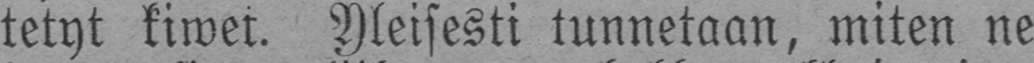tetyt kiwet. Yleisesti tunnetaan, miten ne
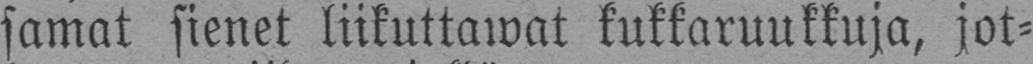samat sienet liikuttawat kukkaruukkuja, jot-
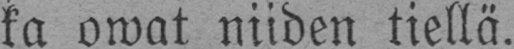ka owat niiden tiellä.
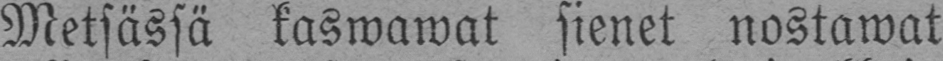Metsässä kaswawat sienet nostawat
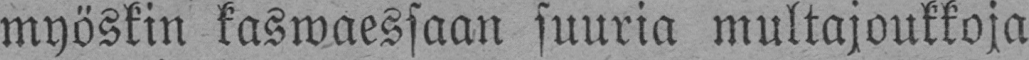myöskin kaswaessaan suuria multajoukkoja
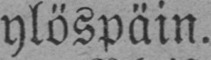ylöspäin.
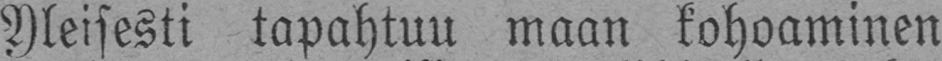Yleisesti tapahtuu maan kohoaminen
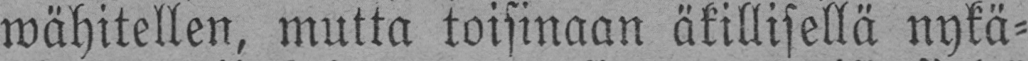wähitellen, mutta toisinaan äkillisellä nykä-
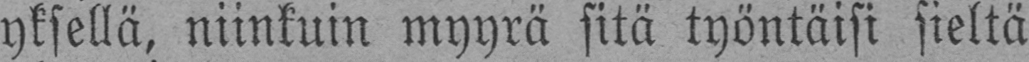yksellä, niinkuin myyrä sitä työntäisi sieltä
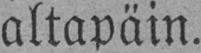altapäin.
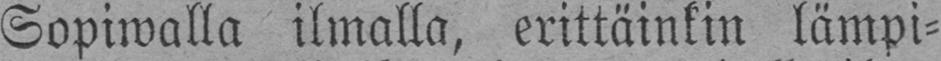Sopiwalla ilmalla, erittäinkin lämpi-
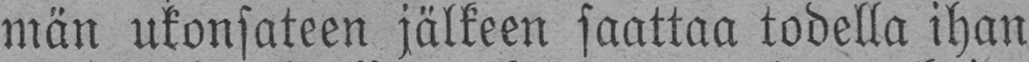män ukonsateen jälkeen saattaa todella ihan
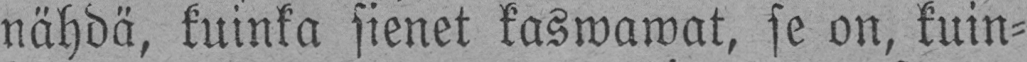nähdä, kuinka sienet kaswawat, se on, kuin-
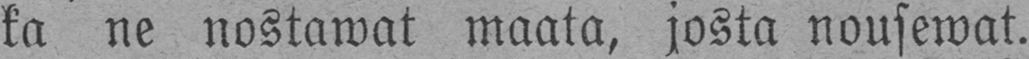ka ne nostawat maata, josta nousewat.
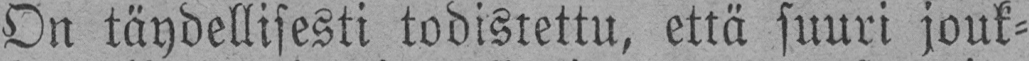On täydellisesti todistettu, että suuri jouk-
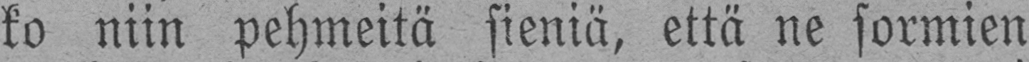ko niin pehmeitä sieniä, että ne sormien
